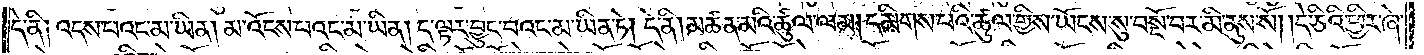དེ་ནི༑ འདས་པའང་མ་ཡིན། མ་འོངས་པའང་མ་ཡིན། ད་ལྟར་བྱུང་བའང་མ་ཡིན་ཏེ། དེ་ནི། མཚན་མའི་ཚུལ་ལམ། དམིགས་པའི་ཚུལ་གྱིས་ཡོངས་སུ་བསྔོ་བར་མི་ནུས་སོ། །དེ་ཅིའི་ཕྱིར་ཞེ་
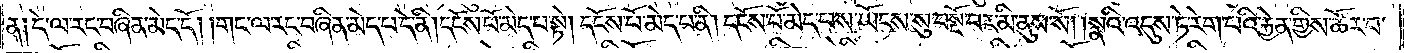ན༑ དེ་ལ་རང་བཞིན་མེད་དོ། །གང་ལ་རང་བཞིན་མེད་པ་དེ་ནི། དངོས་པོ་མེད་པ་སྟེ། དངོས་པོ་མེད་པ་ནི། དངོས་པོ་མེད་པས་ཡོངས་སུ་བསྔོ་བར་མི་ནུས་སོ། །སྣའི་འདུས་ཏེ་རེག་པའི་རྐྱེན་གྱིས་ཚོར་བ་
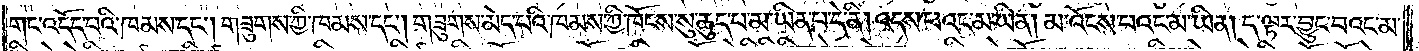གང་འདོད་པའི་ཁམས་དང༌། གཟུགས་ཀྱི་ཁམས་དང༌། གཟུགས་མེད་པའི་ཁམས་ཀྱི་ཁོངས་སུ་ཆུད་པ་མ་ཡིན་པ་དེ་ནི། འདས་པའང་མ་ཡིན། མ་འོངས་བའང་མ་ཡིན། ད་ལྟར་བྱུང་བའང་མ་
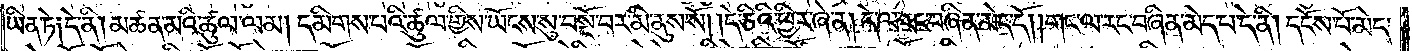ཡིན་ཏེ༑ དེ་ནི། མཚན་མའི་ཚུལ་ལམ། དམིགས་པའི་ཚུལ་གྱིས་ཡོངས་སུ་བསྔོ་བར་མི་ནུས་སོ། །དེ་ཅིའི་ཕྱིར་ཞེ་ན། དེ་ལ་རང་བཞིན་མེད་དོ། གང་ལ་རང་བཞིན་མེད་པ་དེ་ནི། དངོས་པོ་མེད་
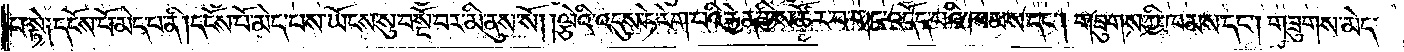པ་སྟེ༑ དངོས་པོ་མེད་པ་ནི། དངོས་པོ་མེད་པས་ཡོངས་སུ་བསྔོ་བར་མི་ནུས་སོ། །ལྕེའི་འདུས་ཏེ་རེག་པའི་རྐྱེན་གྱིས་ཚོར་བ་གང་འདོད་པའི་ཁམས་དང༌། གཟུགས་ཀྱི་ཁམས་དང༌། གཟུགས་མེད་
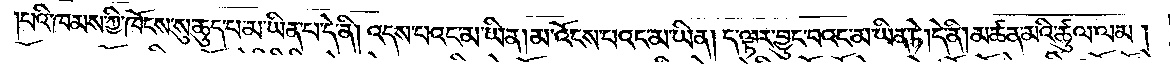པའི་ཁམས་ཀྱི་ཁོངས་སུ་ཆུད་པ་མ་ཡིན་པ་དེ་ནི། འདས་པའང་མ་ཡིན། མ་འོངས་པའང་མ་ཡིན། ད་ལྟར་བྱུང་བའང་མ་ཡིན་ཏེ། དེ་ནི། མཚན་མའི་ཚུལ་ལམ།
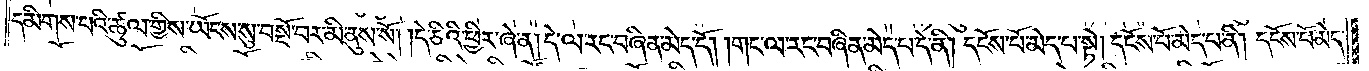དམིགས་པའི་ཚུལ་གྱིས་ཡོངས་སུ་བསྔོ་བར་མི་ནུས་སོ། །དེ་ཅིའི་ཕྱིར་ཞེ་ན། དེ་ལ་རང་བཞིན་མེད་དོ། །གང་ལ་རང་བཞིན་མེད་པ་དེ་ནི། དངོས་པོ་མེད་པ་སྟེ། དངོས་པོ་མེད་པ་ནི། དངོས་པོ་མེད་
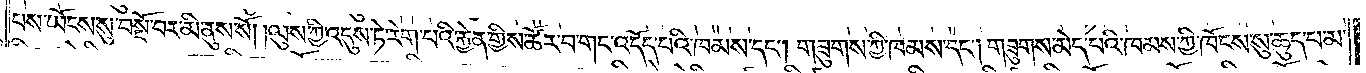པས་ཡོངས་སུ་བསྔོ་བར་མི་ནུས་སོ། །ལུས་ཀྱི་འདུས་ཏེ་རེག་བའི་རྐྱེན་གྱིས་ཚོར་བ་གང་འདོད་པའི་ཁམས་དང༌། གཟུགས་ཀྱི་ཁམས་དང༌། གཟུགས་མེད་པའི་ཁམས་ཀྱི་ཁོངས་སུ་ཆུད་པ་མ་
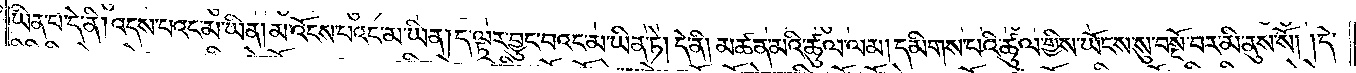ཡིན་པ་དེ་ནི། འདས་པའང་མ་ཡིན། མ་འོངས་པའང་མ་ཡིན། ད་ལྟར་བྱུང་བའང་མ་ཡིན་ཏེ། དེ་ནི། མཚན་མའི་ཚུལ་ལམ། དམིགས་པའི་ཚུལ་གྱིས་ཡོངས་སུ་བསྔོ་བར་མི་ནུས་སོ། །དེ་
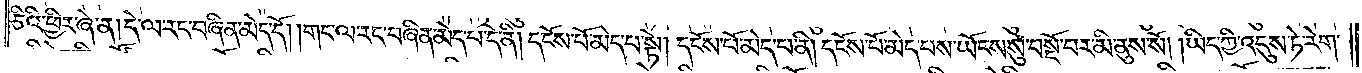ཅིའི་ཕྱིར་ཞེ་ན། དེ་ལ་རང་བཞིན་མེད་དོ། །གང་ལ་རང་བཞིན་མེད་པ་དེ་ནི། དངོས་པོ་མེད་པ་སྟེ། དངོས་པོ་མེད་པ་ནི། དངོས་པོ་མེད་པས་ཡོངས་སུ་བསྔོ་བར་མི་ནུས་སོ། །ཡིད་ཀྱི་འདུས་ཏེ་རེག་
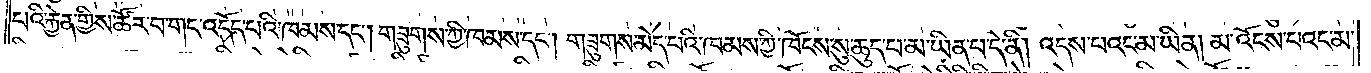པའི་རྐྱེན་གྱིས་ཚོར་བ་གང་འདོད་པའི་ཁམས་དང༌། གཟུགས་ཀྱི་ཁམས་དང༌། གཟུགས་མེད་པའི་ཁམས་ཀྱི་ཁོངས་སུ་ཆུད་པ་མ་ཡིན་པ་དེ་ནི། འདས་པའང་མ་ཡིན། མ་འོངས་པའང་མ་
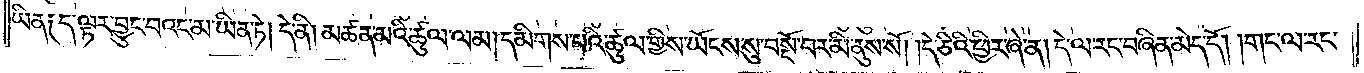ཡིན༑ ད་ལྟར་བྱུང་བའང་མ་ཡིན་ཏེ། དེ་ནི། མཚན་མའི་ཚུལ་ལམ། དམིགས་པའི་ཚུལ་གྱིས་ཡོངས་སུ་བསྔོ་བར་མི་ནུས་སོ། །དེ་ཅིའི་ཕྱིར་ཞེ་ན། དེ་ལ་རང་བཞིན་མེད་དོ། །གང་ལ་རང་
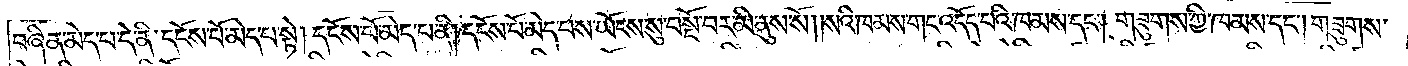བཞིན་མེད་པ་དེ་ནི་དངོས་པོ་མེད་པ་སྟེ། དངོས་པོ་མེད་པ་ནི། དངོས་པ་མེད་པས་ཡོངས་སུ་བསྔོ་བར་མི་ནུས་སོ། །སའི་ཁམས་གང་འདོད་པའི་ཁམས་དང༌། གཟུགས་ཀྱི་ཁམས་དང༌། གཟུགས་
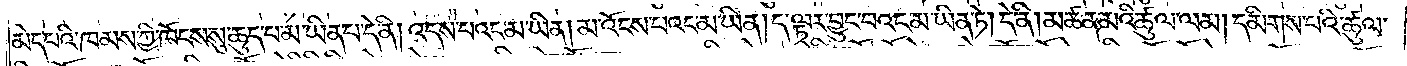མེད་པའི་ཁམས་ཀྱི་ཁོངས་སུ་ཆུད་པ་མ་ཡིན་པ་དེ་ནི། འདས་པའང་མ་ཡིན། མ་འོངས་པའང་མ་ཡིན། ད་ལྟར་བྱུང་བའང་མ་ཡིན་ཏེ། དེ་ནི། མཚན་མའི་ཚུལ་ལམ། དམིགས་པའི་ཚུལ་
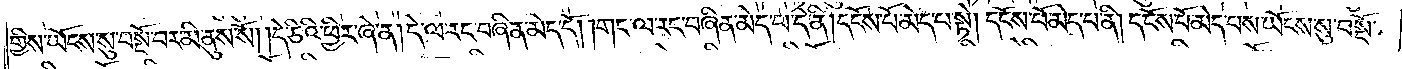གྱིས་ཡོངས་སུ་བསྔོ་བར་མི་ནུས་སོ། །དེ་ཅིའི་ཕྱིར་ཞེ་ན། དེ་ལ་རང་བཞིན་མེད་དོ། །གང་ལ་རང་བཞིན་མེད་པ་དེ་ནི། དངོས་པོ་མེད་པ་སྟེ། དངོས་པོ་མེད་པ་ནི། དངོས་པོ་མེད་པས་ཡོངས་སུ་བསྔོ་
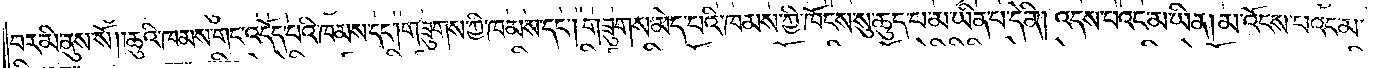བར་མི་ནུས་སོ། །ཆུའི་ཁམས་གང་འདོད་པའི་ཁམས་དང༌། གཟུགས་ཀྱི་ཁམས་དང༌། གཟུགས་མེད་པའི་ཁམས་ཀྱི་ཁོངས་སུ་ཆུད་པ་མ་ཡིན་པ་དེ་ནི། འདས་པའང་མ་ཡིན། མ་འོངས་པའང་མ་
